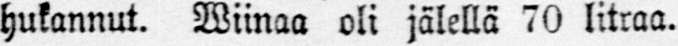hukannut. Wiinaa oli jälellä 70 litraa.
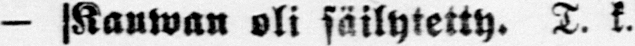— Kauwan oli säilytetty. T. k.
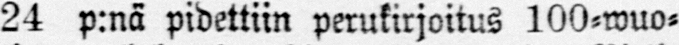24 p:nä pidettiin perukirjoitus 100-wuo-
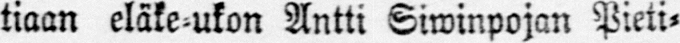tiaan eläke-ukon Antti Siwinpojan Pieti-
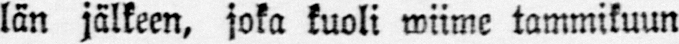län jälkeen, joka kuoli wiime tammikuun
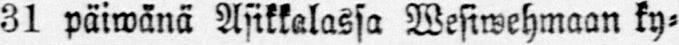31 päiwänä Asikkalassa Wesiwehmaan ky-
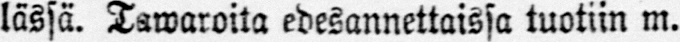lässä. Tawaroita edesannettaissa tuotiin m.
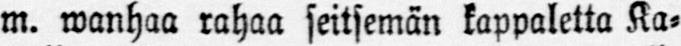m. wanhaa rahaa seitsemän kappaletta Ka-
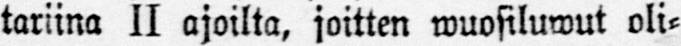tariina II ajoilta, joitten wuosiluwut oli-
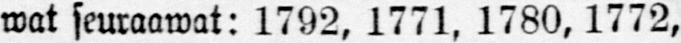wat seuraawat: 1792, 1771, 1780, 1772,
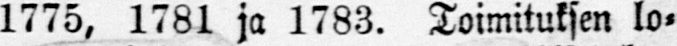1775, 1781 ja 1783. Toimituksen lo-
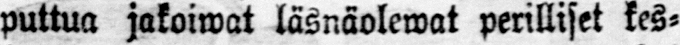puttua jakoiwat läsnäolewat perilliset kes-
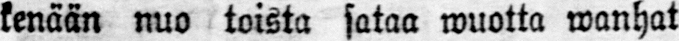kenään nuo toista sataa wuotta wanhat
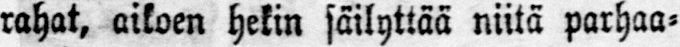rahat, aikoen hekin säilyttää niitä parhaa-
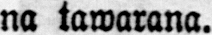na tawarana.
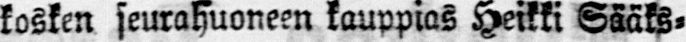kosken seurahuoneen kauppias Heikki Sääks-
